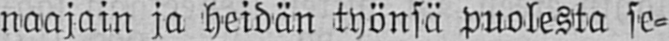naajain ja heidän työnsä puolesta se-
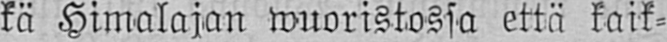kä Himalajan wuoristossa että kaik-
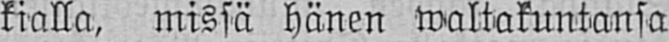kialla, missä hänen waltakuntansa
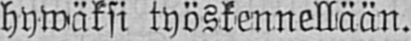hywäksi työskennellään.
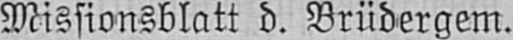Missionsblatt d. Brüdergem.
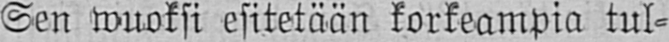Sen wuoksi esitetään korkeampia tul-
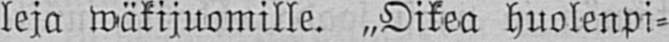leja wäkijuomille. „Oikea huolenpi-
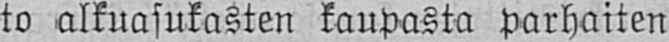to alkuasukasten kaupasta parhaiten
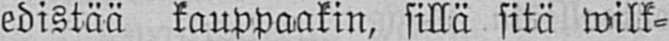edistää kauppaakin, sillä sitä wilk-
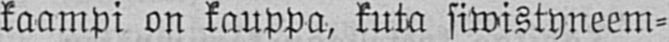kaampi on kauppa, kuta siwistyneem-
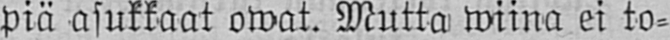piä asukkaat owat. Mutta wiina ei to-
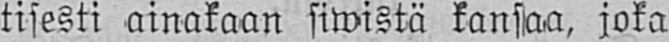tisesti ainakaan siwistä kansaa, joka
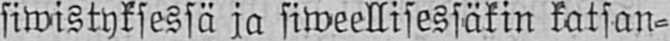siwistyksessä ja siweellisessäkin katsan-
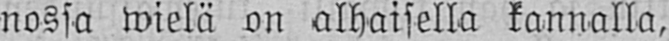nossa wielä on alhaisella kannalla,
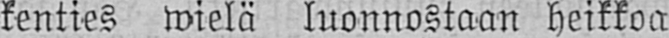kenties wielä luonnostaan heikkoa
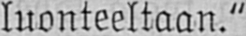luonteeltaan."
